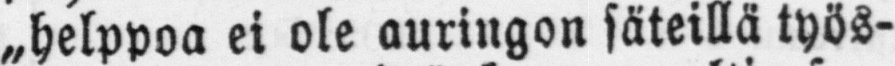„helppoa ei ole auringon säteillä työs-
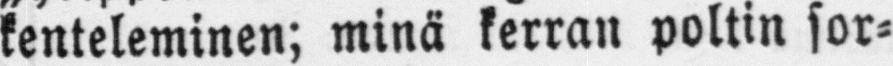kenteleminen; minä kerran poltin sor-
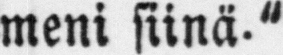meni siinä"
